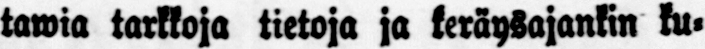tawia tarkkoja tietoja ja keräysajankin ku-
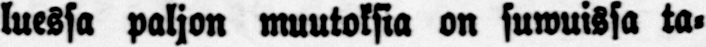luessa paljon muutoksia on suwuissa ta-
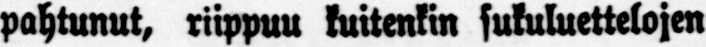pahtunut, riippuu kuitenkin sukuluettelojen
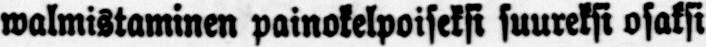vwlmistaminen painokelpoiseksi suureksi osaksi
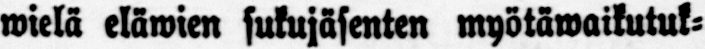wielä eläwien sukujäsenten myötäwaikutuk-
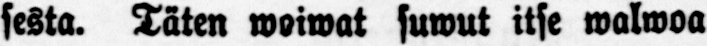sesta. Täten woivat suwut itse walvoa
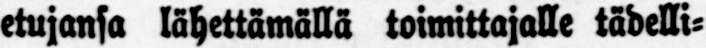etujansa lähettämällä toimittajalle tädelli-
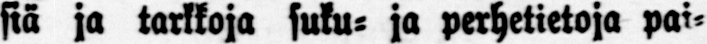siä ja tarkkoja suku- ja perhetietoja pai-
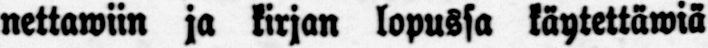nettawiin ja kirjan lopussa käytettäwiä
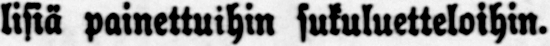lisiä painettuihin sukuluetteloihin.
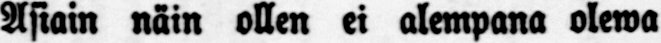Asiain näin ollen ei alempana oleva
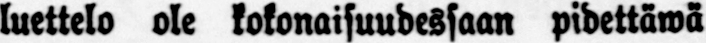luettelo ole kokonaisuudessaan pidettäwä
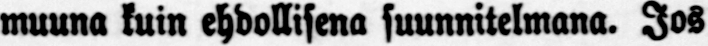muuna kuin ehdollisena suunnitelmana. Jos
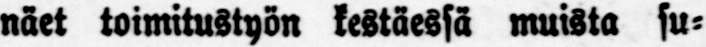näet toimitustyön kestäessä muista su-
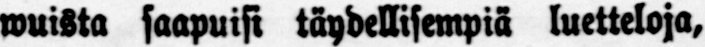wuista saapuisi täydellisempiä luetteloja.
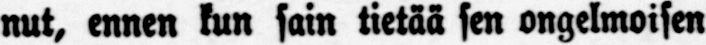nut, ennen kun sain tietää sen ongelmaisen
